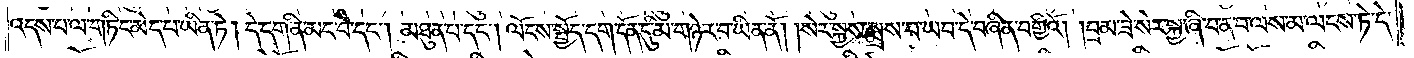འདས་པ་ལ་གཏིང་མེད་པ་ཡིན་ཏེ། དེ་དག་ནི་མང་བ་དང༌། མཐུན་པ་དང༌། ལོངས་སྤྱོད་དག་དོན་དུ་མི་གཉེར་བ་ཡིན་ནོ། །སེར་སྐྱས་སྨྲས་པ་ཡབ་དེ་བཞིན་བགྱིའོ། །བྲམ་ཟེ་སེར་སྐྱ་ཞི་བ་ན་བ་ལས་མ་ལངས་ཏེ་དེ་
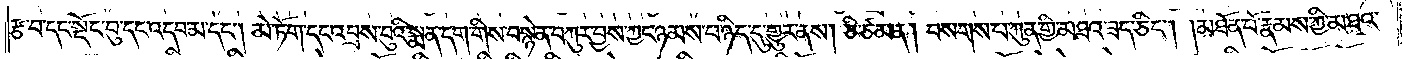རྩ་བ་དང་སྡོང་བུ་དང་འདབ་མ་དང༌། མེ་ཏོག་དང་འབྲས་བུའི་སྨན་དག་གིས་བསྙེན་བཀུར་བྱས་ཀྱང་ཉམས་པ་ཉིད་དུ་གྱུར་ནས། ཅི་ཙམ་ན། བསགས་པ་ཀུན་གྱི་མཐའ་ཟད་ཅིང༌། །མཐོན་པོ་རྣམས་ཀྱི་མཐའ་
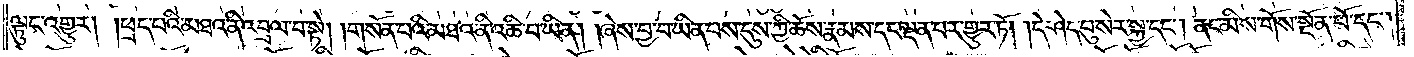ལྟུང་འགྱུར། །ཕྲད་པའི་མཐའ་ནི་འབྲལ་བ་སྟེ། །གསོན་པའི་མཐའ་ནི་འཆི་བ་ཡིན། །ཞེས་བྱ་བ་ཡིན་པས་དུས་ཀྱི་ཆོས་རྣམས་དང་ལྡན་པར་གྱུར་ཏོ། །དེ་ཤེད་བུ་སེར་སྐྱ་དང༌། ནང་མིས་གོས་སྔོན་པོ་དང་
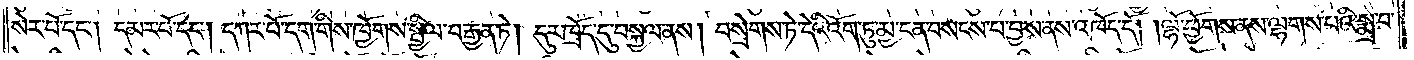སེར་པོ་དང༌། དམར་པོ་དང༌། དཀར་པོ་དག་གིས་ཁྱོགས་སྤྱིལ་བརྒྱན་ཏེ། དུར་ཁྲོད་དུ་བསྐྱལ་ནས། བསྲེགས་ཏེ་དེའི་འོག་ཏུ་མྱ་ངན་བསངས་པ་བྱས་ནས་འཁོད་དོ། །ལྷོ་ཕྱོགས་ནས་ལྷགས་པའི་སྨྲ་བ་
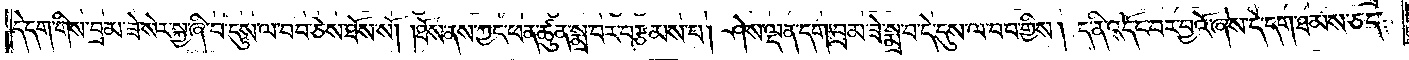དེ་དག་གིས་བྲམ་ཟེ་སེར་སྐྱ་ཞི་བ་དུས་ལ་བབ་ཅེས་ཐོས་སོ། །ཐོས་ནས་ཀྱང་ཕན་ཚུན་སྨྲ་བར་བརྩམས་པ། ཤེས་ལྡན་དག་བྲམ་ཟེ་སྨྲ་བ་དེ་དུས་ལ་བབ་གྱིས། ད་ནི་འདོང་བར་བྱའོ་ཞེས་དེ་དག་ཐམས་ཅད་
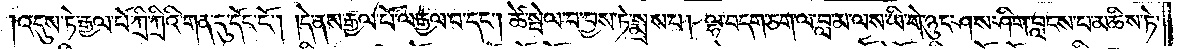འདུས་ཏེ་རྒྱལ་པོ་ཀྲི་ཀྲིའི་གན་དུ་དོང་ངོ༌། །དེ་ནས་རྒྱལ་པོ་ལ་རྒྱལ་བ་དང༌། ཚེ་སྤེལ་བ་བྱས་ཏེ་སྨྲས་པ། ལྷ་བདག་ཅག་ལ་བླ་མ་ལས་ཡི་གེ་ཉུང་ཤས་ཤིག་བླངས་པ་མཆིས་ཏེ་
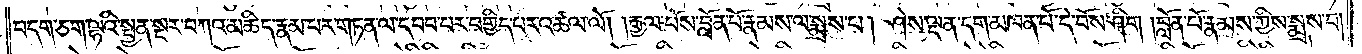བདག་ཅག་ལྷའི་སྤྱན་སྔར་བཀའ་མཆིད་རྣམ་པར་གཏན་ལ་དབབ་པར་བགྱིད་པར་འཚལ་ལོ། །རྒྱལ་པོས་བློན་པོ་རྣམས་ལ་སྨྲས་པ། ཤེས་ལྡན་དག་མཁན་པོ་དེ་བོས་ཤིག །བློན་པོ་རྣམས་ཀྱིས་སྨྲས་པ།
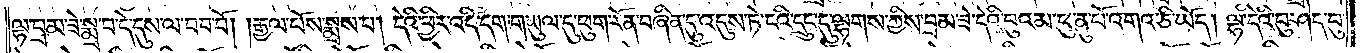ལྷ་བྲམ་ཟེ་སྨྲ་བ་དེ་དུས་ལ་བབ་བོ། །རྒྱལ་པོས་སྨྲས་པ། དེའི་ཕྱིར་འདི་དག་གཡུལ་དུ་ཕུག་རོན་བཞིན་དུ་འདུས་ཏེ་ངའི་དྲུང་དུ་ལྷགས་ཀྱིས་བྲམ་ཟེ་དེའི་བུའམ་ཕུ་ནུ་པོ་འགའ་ཅི་ཡོད། ལྷ་དེའི་བུ་ཤེད་བུ་
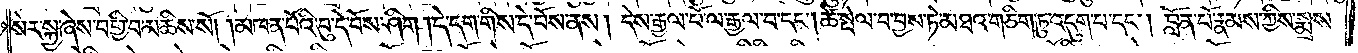སེར་སྐྱ་ཞེས་བགྱི་བ་མཆིས་སོ། །མཁན་པོའི་བུ་དེ་བོས་ཤིག །དེ་དག་གིས་དེ་བོས་ནས། དེས་རྒྱལ་པོ་ལ་རྒྱལ་བ་དང༌། ཚེ་སྤེལ་བ་བྱས་ཏེ་མཐའ་གཅིག་ཏུ་འདུག་པ་དང༌། བློན་པོ་རྣམས་ཀྱིས་སྨྲས་
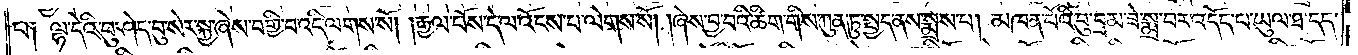པ༑ ལྷ་དེའི་བུ་ཤེད་བུ་སེར་སྐྱ་ཞེས་བགྱི་བ་འདི་ལགས་སོ། །རྒྱལ་པོས་དེ་ལ་འོངས་པ་ལེགས་སོ། །ཞེས་བྱ་བའི་ཚིག་གིས་ཀུན་ཏུ་སྤྱད་ནས་སྨྲས་པ། མཁན་པོའི་བུ་བྲམ་ཟེ་སྨྲ་བར་འདོད་པ་ཡུལ་ཐ་དད་
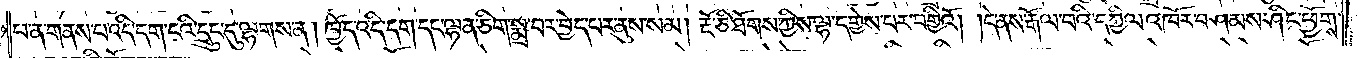པ་ན་གནས་པ་འདི་དག་ངའི་དྲུང་དུ་ལྷགས་ན། ཁྱོད་འདི་དག་དང་ལྷན་ཅིག་སྨྲ་བར་བྱེད་པར་ནུས་སམ། རྔོ་ཅི་ཐོགས་ཀྱིས་ལྷ་དགྱེས་པར་བགྱིའོ། །དེ་ནས་རྒོལ་བའི་དཀྱིལ་འཁོར་བཤམས་ཤིང་ཕྱོགས་
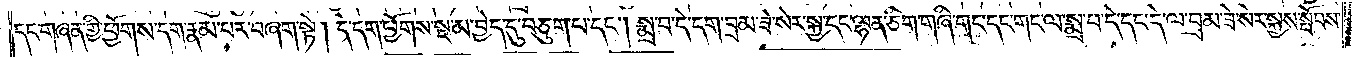དང་གཞན་གྱི་ཕྱོགས་དག་རྣམ་པར་བཞག་སྟེ། དེ་དག་ཕྱོགས་སྔ་མ་བྱེད་དུ་བཅུག་པ་དང༌། སྨྲ་བ་དེ་དག་བྲམ་ཟེ་སེར་སྐྱ་དང་ལྷན་ཅིག་གཞི་གང་དང་གང་ལ་སྨྲ་བ་དེ་དང་དེ་ལ་བྲམ་ཟེ་སེར་སྐྱས་སྤོབས་
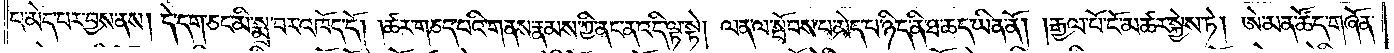པ་མེད་པར་བྱས་ནས། དེ་དག་ཅང་མི་སྨྲ་བར་འཁོད་དོ། །ཚར་གཅད་པའི་གནས་རྣམས་ཀྱི་ནང་ན་འདི་ལྟ་སྟེ། ལན་ལ་སྤོབས་པ་མེད་པ་ཉིད་ནི་ཐ་ཆད་ཡིན་ནོ། །རྒྱལ་པོ་ངོ་མཚར་སྐྱེས་ཏེ། ཨེ་མན་ཚོད་གཞོན་
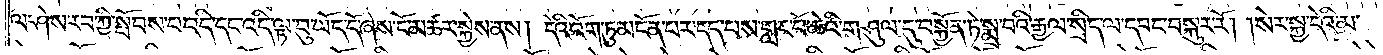ལ་ཤེས་རབ་ཀྱི་སྤོབས་པ་འདི་དང་འདི་ལྟ་བུ་ཡོད་དོ་ཞེས་ངོ་མཚར་སྐྱེས་ནས། དེའི་འོག་ཏུ་མངོན་པར་དད་པས་གླང་པོ་ཆེའི་གཤུལ་དུ་བསྐྱོན་ཏེ་སྨྲ་བའི་རྒྱལ་སྲིད་ལ་དབང་བསྐུར་རོ། །སེར་སྐྱ་དེའི་མ་
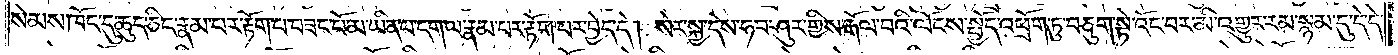སེམས་ཁོང་དུ་ཆུད་ཅིང་རྣམ་པར་རྟོག་པ་བཟང་པོ་མ་ཡིན་པ་དག་ལ་རྣམ་པར་རྟོག་པར་བྱེད་དེ། སེར་སྐྱ་དེས་ཧབ་ཤུར་གྱིས་རྒོལ་བའི་ལོངས་སྤྱོད་འཕྲོག་ཏུ་བཅུག་སྟེ་འོང་བར་མི་འགྱུར་རམ་སྙམ་དུ་དེ་དེ་
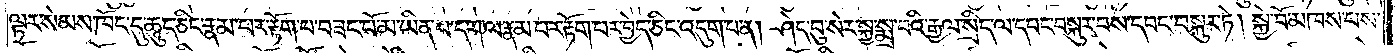ལྟར་སེམས་ཁོང་དུ་ཆུད་ཅིང་རྣམ་པར་རྟོག་པ་བཟང་པོ་མ་ཡིན་པ་དག་ལ་རྣམ་པར་རྟོག་པར་བྱེད་ཅིང་འདུག་པ་ན། ཤེད་བུ་སེར་སྐྱ་སྨྲ་བའི་རྒྱལ་སྲིད་ལ་དབང་བསྐུར་བས་དབང་བསྐུར་ཏེ། སྐྱེ་བོ་མཁས་པས་
